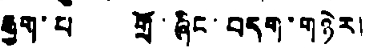རྒྱག་པ གྲོ་ཞིང་བདག་གཉེར།
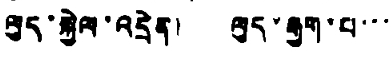ལུད་སྐྱེལ་འདྲེན། ལུད་རྒྱག་པ་་་
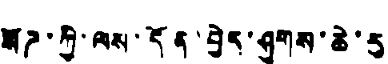སོཌ་ཀྱི་ལས་དོན་བྱེད་ཤུགས་ཆེ་རུ
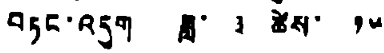བཏང་འདུག ཟླ་ ༣ ཚེས་ ༡༥
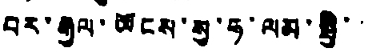བར་རྒྱལ་ཡོངས་སུ་ཧ་ལམ་སྤྱི་་་་
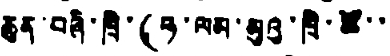ཆུན་བཞི་ཁྲི་(ཧ་ལམ་མུའུ་ཁྲི་ཚོ་་
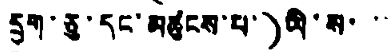དྲུག་ཅུ་དང་མཚུངས་པ་)ཡི་ས་་
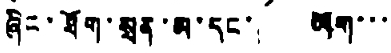ཞིང་ཐོག་སྲན་མ་དང་། ཡོག་་་
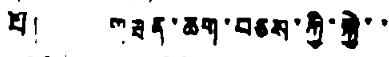པོ། གཟན་ཆག་བཅས་ཀྱི་སྐྱེ་་
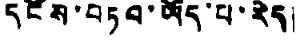དངོས་བཏབ་ཡོད་པ་རེད།
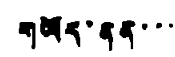གཡོད་ནན་་་
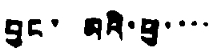བྱང་ མའི་ཕུ་་་་་
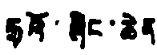ཧྲའོ་ཞིང་ཆེན་
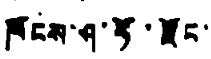ཁོངས་ཤ་ཧོ་རྫོང་
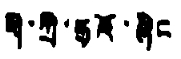གི་ཀྲི་ཧྲའོ་ཞིང
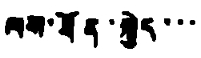ལས་ཐོན་སྐྱེད་་་་
